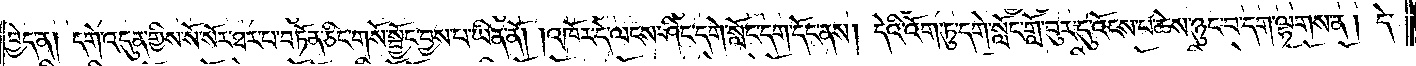བྱེད་ན། དགེ་འདུན་གྱིས་སོ་སོར་ཐར་པ་བཏོན་ཅིང་གསོ་སྦྱོང་བྱས་པ་ཡིན་ནོ། །འཁོར་དེ་ལངས་ཤིང་དགེ་སློང་དག་དོང་ནས། དེའི་འོག་ཏུ་དགེ་སློང་གློ་བུར་དུ་འོངས་པ་ཆེས་ཉུང་བ་དག་ལྷགས་ན། དེ་
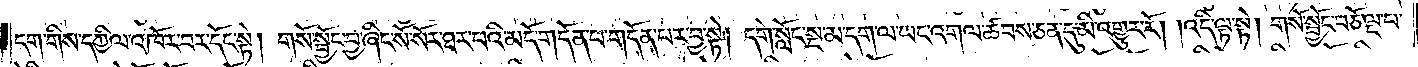དག་གིས་དཀྱིལ་འཁོར་བར་དོང་སྟེ། གསོ་སྦྱོང་བྱ་ཞིང་སོ་སོར་ཐར་པའི་མདོ་གདོན་པ་གདོན་པར་བྱ་སྟེ། དགེ་སློང་སྔ་མ་དག་ལ་ཡང་འགལ་ཚབས་ཅན་དུ་མི་འགྱུར་རོ། །འདི་ལྟ་སྟེ། གསོ་སྦྱོང་བཅོ་ལྔ་པ་
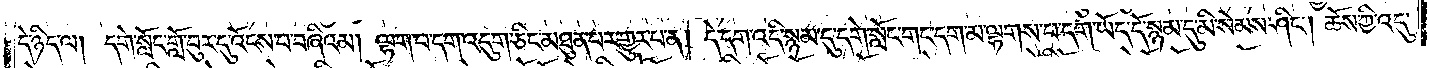དེ་ཉིད་ལ། དགེ་སློང་གློ་བུར་དུ་འོངས་པ་བཞིའམ། ལྷག་པ་དག་འདུག་ཅིང་མཐུན་པར་གྱུར་པ་ན། དེ་དག་འདི་སྙམ་དུ་དགེ་སློང་གང་དག་མ་ལྷགས་པ་དག་ཡོད་དོ་སྙམ་དུ་མི་སེམས་ཤིང༌། ཆོས་ཀྱི་འདུ་
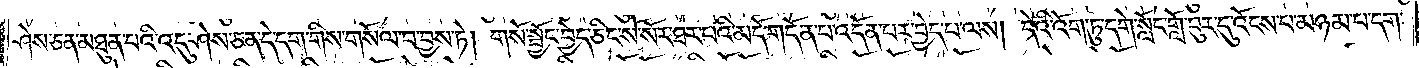ཤེས་ཅན་མཐུན་པའི་འདུ་ཤེས་ཅན་དེ་དག་གིས་གསོལ་བ་བྱས་ཏེ། གསོ་སྦྱོང་བྱེད་ཅིང་སོ་སོར་ཐར་པའི་མདོ་གདོན་པ་འདོན་པར་བྱེད་པ་ལས། དེའི་འོག་ཏུ་དགེ་སློང་གློ་བུར་དུ་འོངས་པ་མཉམ་པ་དག་
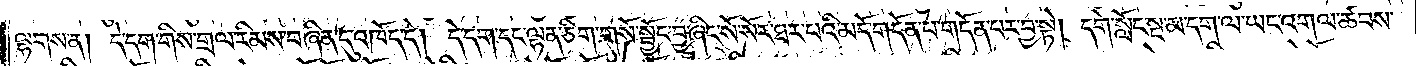ལྷགས་ན། དེ་དག་གིས་གྲལ་རིམས་བཞིན་དུ་འཁོད་དེ། དེ་དག་དང་ལྷན་ཅིག་གསོ་སྦྱོང་བྱ་ཞིང་སོ་སོར་ཐར་པའི་མདོ་གདོན་པ་གདོན་པར་བྱ་སྟེ། དགེ་སློང་སྔ་མ་དག་ལ་ཡང་འགལ་ཚབས་
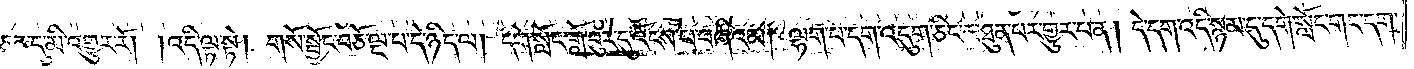ཅན་དུ་མི་འགྱུར་རོ། །འདི་ལྟ་སྟེ། གསོ་སྦྱོང་བཅོ་ལྔ་པ་དེ་ཉིད་ལ། དགེ་སློང་གློ་བུར་དུ་འོངས་པ་བཞིའམ། ལྷག་པ་དག་འདུག་ཅིང་མཐུན་པར་གྱུར་པ་ན། དེ་དག་འདི་སྙམ་དུ་དགེ་སློང་གང་དག་
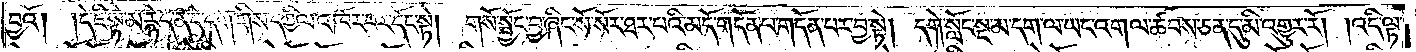བྱའོ། །དེ་ཇི་སྟེ་མ་རྙེད་ན་དེ་དག་གིས་དཀྱིལ་འཁོར་བར་དོང་སྟེ། གསོ་སྦྱོང་བྱ་ཞིང་སོ་སོར་ཐར་པའི་མདོ་གདོན་པ་གདོན་པར་བྱ་སྟེ། དགེ་སློང་སྔ་མ་དག་ལ་ཡང་འགལ་ཚབས་ཅན་དུ་མི་འགྱུར་རོ། །འདི་ལྟ་
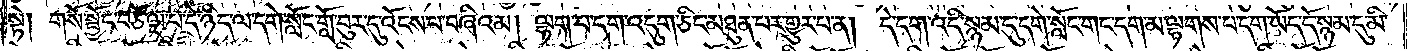སྟེ། གསོ་སྦྱོང་བཅོ་ལྔ་པ་དེ་ཉིད་ལ་དགེ་སློང་གློ་བུར་དུ་འོངས་པ་བཞིའམ། ལྷག་པ་དག་འདུག་ཅིང་མཐུན་པར་གྱུར་པ་ན། དེ་དག་འདི་སྙམ་དུ་དགེ་སློང་གང་དག་མ་ལྷགས་པ་དག་ཡོད་དོ་སྙམ་དུ་མི་
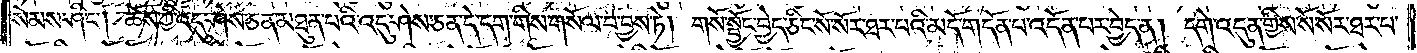སེམས་ཤིང༌། ཆོས་ཀྱི་འདུ་ཤེས་ཅན་མཐུན་པའི་འདུ་ཤེས་ཅན་དེ་དག་གིས་གསོལ་བ་བྱས་ཏེ། གསོ་སྦྱོང་བྱེད་ཅིང་སོ་སོར་ཐར་པའི་མདོ་གདོན་པ་འདོན་པར་བྱེད་ན། དགེ་འདུན་གྱིས་སོ་སོར་ཐར་པ་
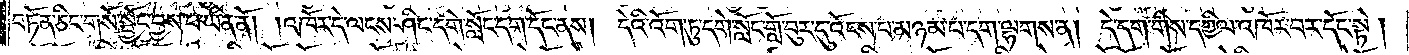བཏོན་ཅིང་གསོ་སྦྱོང་བྱས་པ་ཡིན་ནོ། །འཁོར་དེ་ལངས་ཤིང་དགེ་སློང་དག་དོང་ནས། དེའི་འོག་ཏུ་དགེ་སློང་གློ་བུར་དུ་འོངས་པ་མཉམ་པ་དག་ལྷགས་ན། དེ་དག་གིས་དཀྱིལ་འཁོར་བར་དོང་སྟེ།
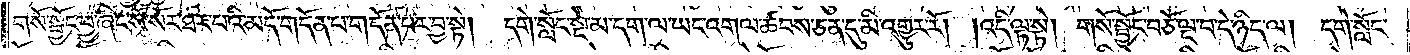གསོ་སྦྱོང་བྱ་ཞིང་སོ་སོར་ཐར་པའི་མདོ་གདོན་པ་གདོན་པར་བྱ་སྟེ། དགེ་སློང་སྔ་མ་དག་ལ་ཡང་འགལ་ཚབས་ཅན་དུ་མི་འགྱུར་རོ། །འདི་ལྟ་སྟེ། གསོ་སྦྱོང་བཅོ་ལྔ་པ་དེ་ཉིད་ལ། དགེ་སློང་
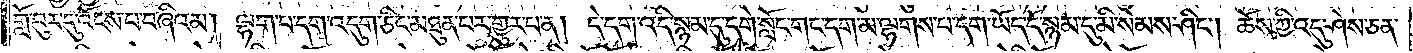གློ་བུར་དུ་འོངས་པ་བཞིའམ། ལྷག་པ་དག་འདུག་ཅིང་མཐུན་པར་གྱུར་པ་ན། དེ་དག་འདི་སྙམ་དུ་དགེ་སློང་གང་དག་མ་ལྷགས་པ་དག་ཡོད་དོ་སྙམ་དུ་མི་སེམས་ཤིང༌། ཆོས་ཀྱི་འདུ་ཤེས་ཅན་
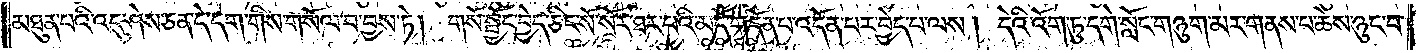མཐུན་པའི་འདུ་ཤེས་ཅན་དེ་དག་གིས་གསོལ་བ་བྱས་ཏེ། གསོ་སྦྱོང་བྱེད་ཅིང་སོ་སོར་ཐར་པའི་མདོ་གདོན་པ་འདོན་པར་བྱེད་པ་ལས། དེའི་འོག་ཏུ་དགེ་སློང་གཉུག་མར་གནམ་པ་ཆེས་ཉུང་བ་
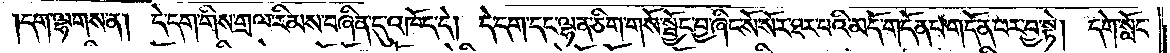།དག་ལྷགས་ན། དེ་དག་གིས་གྲལ་རིམས་བཞིན་དུ་འཁོད་དེ། དེ་དག་དང་ལྷན་ཅིག་གསོ་སྦྱོང་བྱ་ཞིང་སོ་སོར་ཐར་པའི་མདོ་གདོན་པ་གདོན་པར་བྱ་སྟེ། དགེ་སློང་
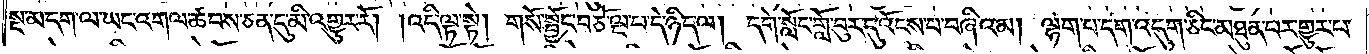སྔ་མ་དག་ལ་ཡང་འགལ་ཚབས་ཅན་དུ་མི་འགྱུར་རོ། །འདི་ལྟ་སྟེ། གསོ་སྦྱོང་བཅོ་ལྔ་པ་དེ་ཉིད་ལ། དགེ་སློང་གློ་བུར་དུ་འོངས་པ་བཞིའམ། ལྷག་པ་དག་འདུག་ཅིང་མཐུན་པར་གྱུར་པ་
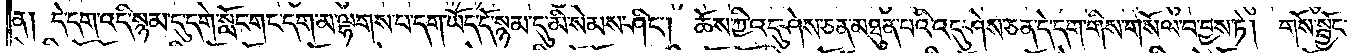ན། དེ་དག་འདི་སྙམ་དུ་དགེ་སློང་གང་དག་མ་ལྷགས་པ་དག་ཡོད་དོ་སྙམ་དུ་མི་སེམས་ཤིང༌། ཆོས་ཀྱི་འདུ་ཤེས་ཅན་མཐུན་པའི་འདུ་ཤེས་ཅན་དེ་དག་གིས་གསོལ་བ་བྱས་ཏེ། གསོ་སྦྱོང་
